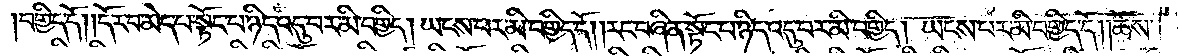བགྱིད་དོ། །དོར་བ་མེད་པ་སྟོང་པ་ཉིད་འདུ་བར་མི་བགྱིད། ཡངས་པར་མི་བགྱིད་དོ། །རང་བཞིན་སྟོང་པ་ཉིད་འདུ་བར་མི་བགྱིད། ཡངས་པར་མི་བགྱིད་དོ། །ཆོས་
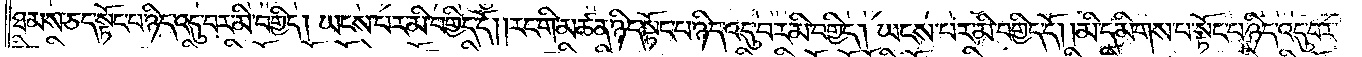ཐམས་ཅད་སྟོང་པ་ཉིད་འདུ་བར་མི་བགྱིད། ཡངས་པར་མི་བགྱིད་དོ། །རང་གི་མཚན་ཉིད་སྟོང་པ་ཉིད་འདུ་བར་མི་བགྱིད། ཡངས་པར་མི་བགྱིད་དོ། །མི་དམིགས་པ་སྟོང་པ་ཉིད་འདུ་བར་
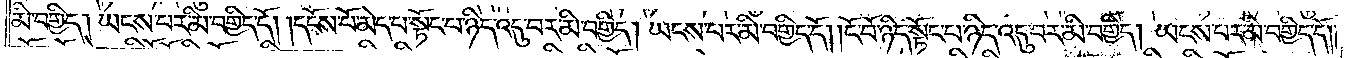མི་བགྱིད། ཡངས་པར་མི་བགྱིད་དོ། །དངོས་པོ་མེད་པ་སྟོང་པ་ཉིད་འདུ་བར་མི་བགྱིད། ཡངས་པར་མི་བགྱིད་དོ། །ངོ་བོ་ཉིད་སྟོང་པ་ཉིད་འདུ་བར་མི་བགྱིད། ཡངས་པར་མི་བགྱིད་དོ༎
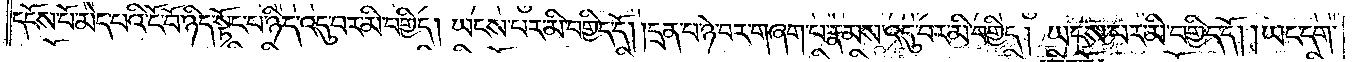དངོས་པོ་མེད་པའི་ངོ་བོ་ཉིད་སྟོང་པ་ཉིད་འདུ་བར་མི་བགྱིད། ཡངས་པར་མི་བགྱིད་དོ། །དྲན་པ་ཉེ་བར་གཞག་པ་རྣམས་འདུ་བར་མི་བགྱིད། ཡངས་པར་མི་བགྱིད་དོ། །ཡང་དག་
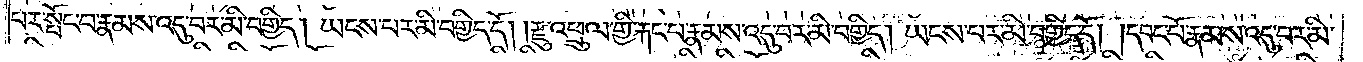པར་སྤོང་བ་རྣམས་འདུ་བར་མི་བགྱིད། ཡངས་པར་མི་བགྱིད་དོ། །རྫུ་འཕྲུལ་གྱི་རྐང་པ་རྣམས་འདུ་བར་མི་བགྱིད། ཡངས་པར་མི་བགྱིད་དོ། །དབང་པོ་རྣམས་འདུ་བར་མི་
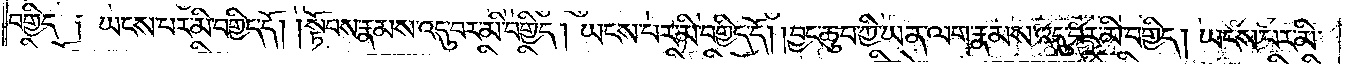བགྱིད༑ ཡངས་པར་མི་བགྱིད་དོ། །སྟོབས་རྣམས་འདུ་བར་མི་བགྱིད། ཡངས་པར་མི་བགྱིད་དོ། །བྱང་ཆུབ་ཀྱི་ཡན་ལག་རྣམས་འདུ་བར་མི་བགྱིད། ཡངས་པར་མི་
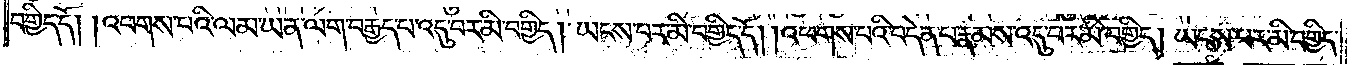བགྱིད་དོ། །འཕགས་པའི་ལམ་ཡན་ལག་བརྒྱད་པ་འདུ་བར་མི་བགྱིད། ཡངས་པར་མི་བགྱིད་དོ། །འཕགས་པའི་བདེན་པ་རྣམས་འདུ་བར་མི་བགྱིད། ཡངས་པར་མི་བགྱིད་
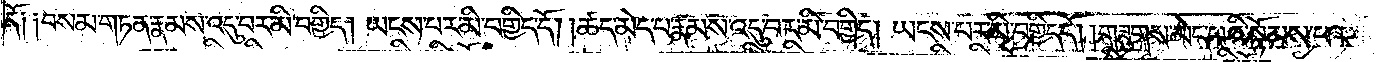དོ༑ ༑བསམ་གཏན་རྣམས་འདུ་བར་མི་བགྱིད། ཡངས་པར་མི་བགྱིད་དོ། །ཚད་མེད་པ་རྣམས་འདུ་བར་མི་བགྱིད། ཡངས་པར་མི་བགྱིད་དོ། །གཟུགས་མེད་པའི་སྙོམས་པར་
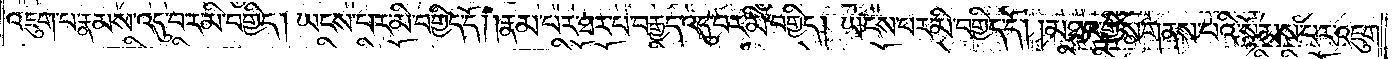འཇུག་པ་རྣམས་འདུ་བར་མི་བགྱིད། ཡངས་པར་མི་བགྱིད་དོ། །རྣམ་པར་ཐར་པ་བརྒྱད་འདུ་བར་མི་བགྱིད། ཡངས་པར་མི་བགྱིད་དོ། །མཐར་གྱིས་གནས་པའི་སྙོམས་པར་འཇུག་
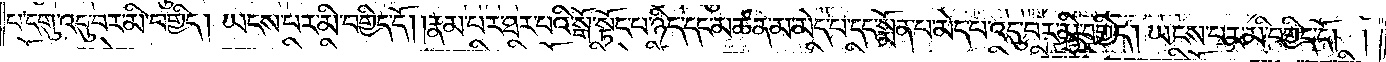པ་དགུ་འདུ་བར་མི་བགྱིད། ཡངས་པར་མི་བགྱིད་དོ། །རྣམ་པར་ཐར་པའི་སྒོ་སྟོང་པ་ཉིད་དང་མཚན་མ་མེད་པ་དང་སྨོན་པ་མེད་པ་འདུ་བར་མི་བགྱིད། ཡངས་པར་མི་བགྱིད་དོ། །
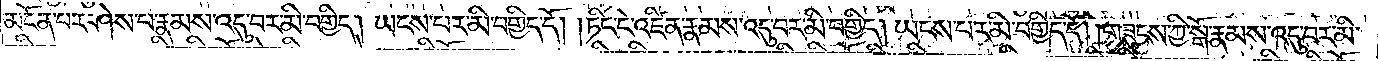མངོན་པར་ཤེས་པ་རྣམས་འདུ་བར་མི་བགྱིད། ཡངས་པར་མི་བགྱིད་དོ། །ཏིང་ངེ་འཛིན་རྣམས་འདུ་བར་མི་བགྱིད། ཡངས་པར་མི་བགྱིད་དོ། །གཟུངས་ཀྱི་སྒོ་རྣམས་འདུ་བར་མི་
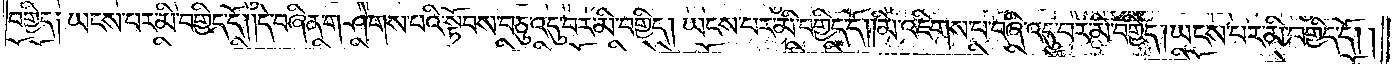བགྱིད༑ ཡངས་པར་མི་བགྱིད་དོ། །དེ་བཞིན་གཤེགས་པའི་སྟོབས་བཅུ་འདུ་བར་མི་བགྱིད། ཡངས་པར་མི་བགྱིད་དོ། །མི་འཇིགས་པ་བཞི་འདུ་བར་མི་བགྱིད། ཡངས་པར་མི་བགྱིད་དོ། །
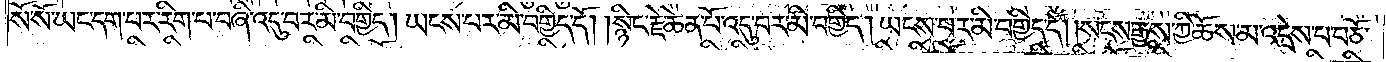སོ་སོ་ཡང་དག་པར་རིག་པ་བཞི་འདུ་བར་མི་བགྱིད། ཡངས་པར་མི་བགྱིད་དོ། །སྙིང་རྗེ་ཆེན་པོ་འདུ་བར་མི་བགྱིད། ཡངས་པར་མི་བགྱིད་དོ། །སངས་རྒྱས་ཀྱི་ཆོས་མ་འདྲེས་པ་བཅོ་
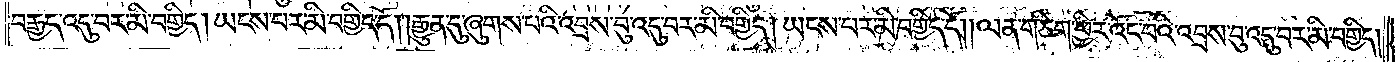བརྒྱད་འདུ་བར་མི་བགྱིད། ཡངས་པར་མི་བགྱིད་དོ། །རྒྱུན་དུ་ཞུགས་པའི་འབྲས་བུ་འདུ་པར་མི་བགྱིད། ཡངས་པར་མི་བགྱིད་དོ། །ལན་གཅིག་ཕྱིར་འོང་བའི་འབྲས་བུ་འདུ་བར་མི་བགྱིད།
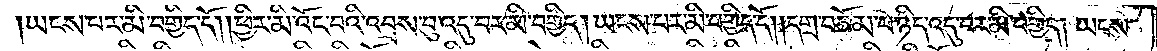ཡངས་པར་མི་བགྱིད་དོ། །ཕྱིར་མི་འོང་བའི་འབྲས་བུ་འདུ་བར་མི་བགྱིད། ཡངས་པར་མི་བགྱིད་དོ། །དགྲ་བཅོམ་པ་ཉིད་འདུ་བར་མི་བགྱིད། ཡངས་
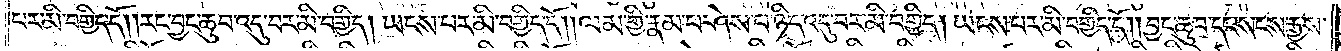པར་མི་བགྱིད་དོ། །རང་བྱང་ཆུབ་འདུ་བར་མི་བགྱིད། ཡངས་པར་མི་བགྱིད་དོ། །ལམ་གྱི་རྣམ་པར་ཤེས་པ་ཉིད་འདུ་བར་མི་བགྱིད། ཡངས་པར་མི་བགྱིད་དོ། །བྱང་ཆུབ་དང་སངས་རྒྱས་
